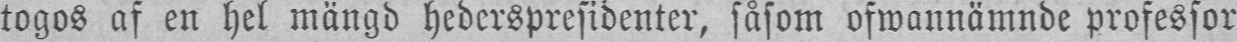togos af en hel mängd hederspresidenter, såsom ofwannämnde professor
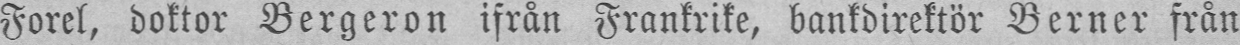Forel, doktor Bergeron ifrån Frankrike, bankdirektör Berner från
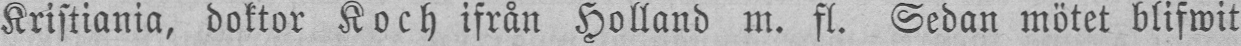Kristiania, doktor Koch ifrån Holland m. fl. Sedan mötet blifwit
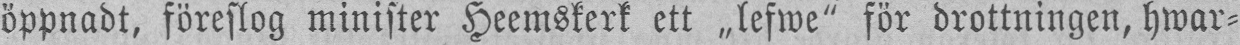öppnadt, föreslog minister Heemskerk ett „lefwe" för drottningen, hwar-
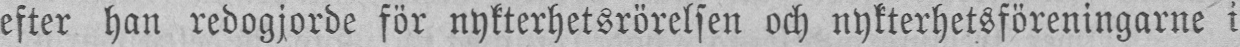efter han redogjorde för nykterhetsrörelsen och nykterhetsföreningarne i
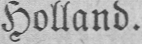Holland.
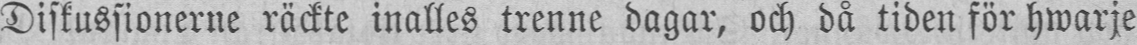Diskussionerne räckte inalles trenne dagar, och då tiden för hwarje
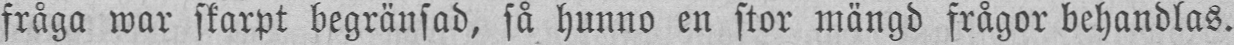fråga war skarpt begränsad, så hunno en stor mängd frågor behandlas.
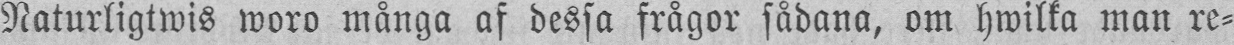Naturligtwis woro många af dessa frågor sådana, om hwilka man re-
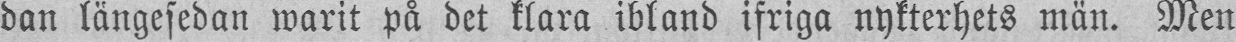dan längesedan warit på det klara ibland ifriga nykterhets män. Men
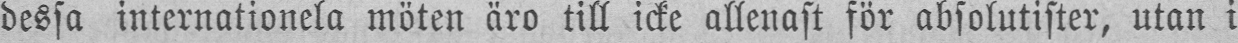dessa internationela möten äro till icke allenast för absolutister, utan i
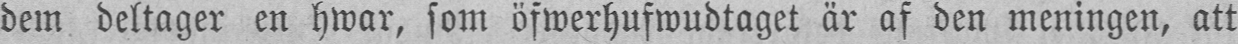dem deltager en hwar, som öfwerhufwudtaget är af den meningen, att
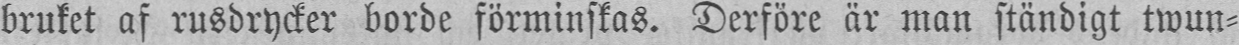bruket af rusdrycker borde förminskas. Derföre är man ständigt twun-
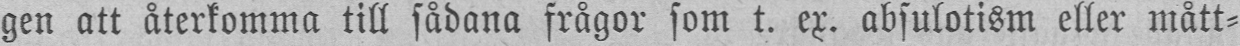gen att återkomma till sådana frågor som t. ex. absulotism eller mått-
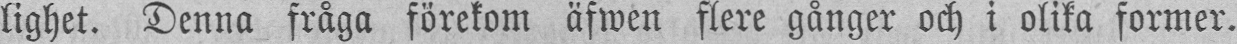lighet. Denna fråga förekom äfwen flere gånger och i olika former.
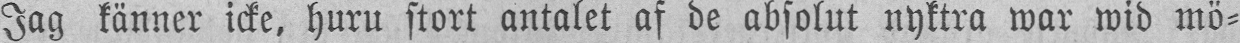Jag känner icke, huru stort antalet af de absolut nyktra war wid mö-
